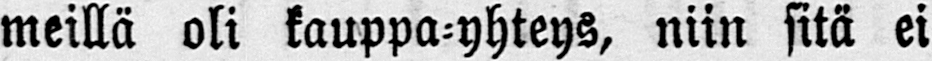meillä oli kauppa-yhteys, niin sitä ei
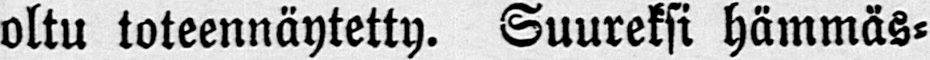oltu toteennäytetty. Suureksi hämmäs-
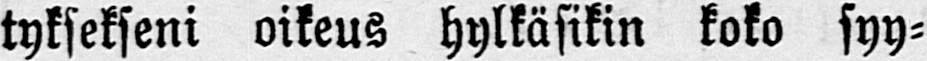tyksekseni oikeus hylkäsikin koko syy-
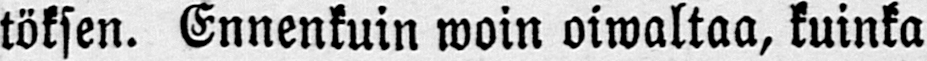töksen. Ennenkuin woin oiwaltaa, kuinka
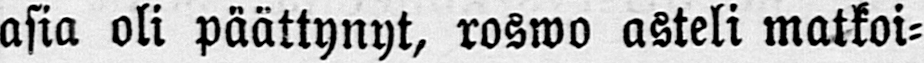asia oli päättynyt, roswo asteli matkoi-
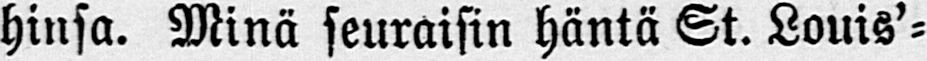hinsa. Minä seuraisin häntä St. Louis'-
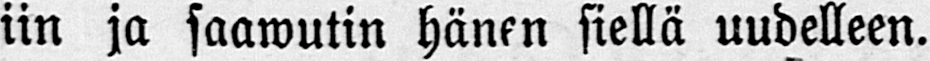iin ja saawutin hänen siellä uudelleen.
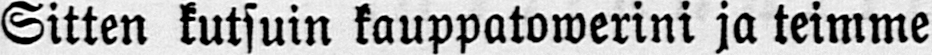Sitten kutsuin kauppatowerini ja teimme
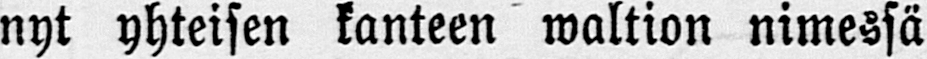nyt yhteisen kanteen waltion nimessä
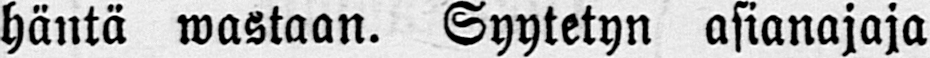häntä wastaan. Syytetyn asianajaja
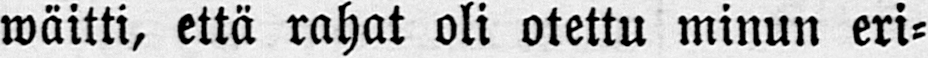wäitti, että rahat oli otettu minun eri-
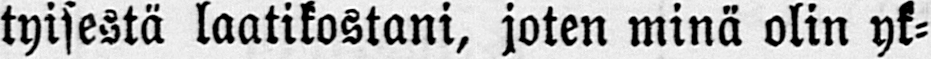tyisestä laatikostani, joten minä olin yk-
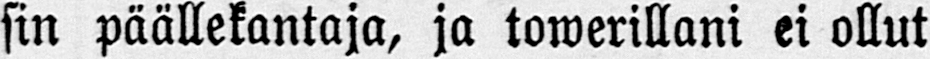sin päällekantaja, ja towerillani ei ollut
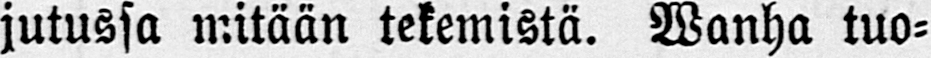jutussa mitään tekemistä. Wanha tuo-
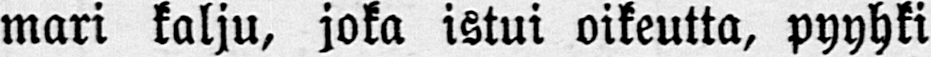mari kalju, joka istui oikeutta, pyyhki
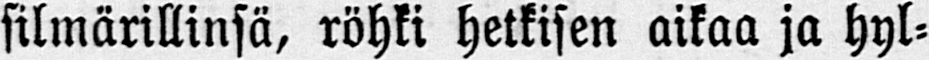silmärillinsä, röhki hetkisen aikaa ja hyl-
